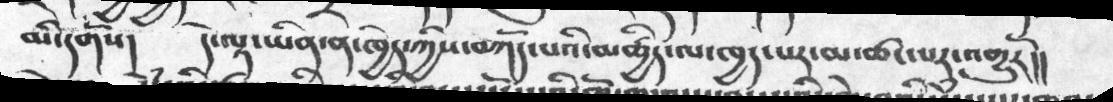མི་དགོས།  དེ་ལྟ་ཡིན་ན་ཁྱེད་ཀྱིས་བཀོད་པའི་མཚྱིད་ལ་ཁྱད་པར་མ་ཚང་པར་འགྱུརོ།།
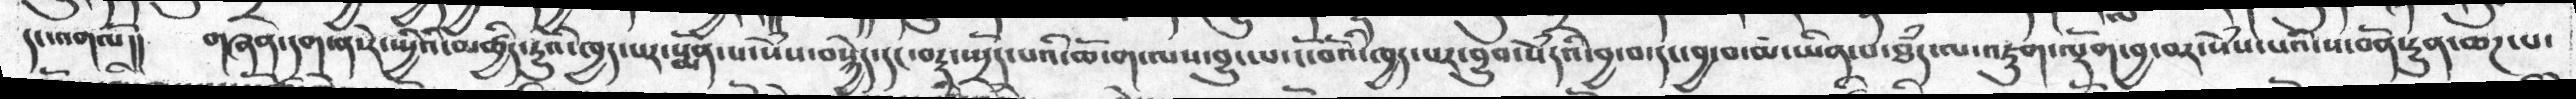དང་འགལོ།།  གཞན་དག་ན་རེ་སྤྱིའི་མཚྱིད་དྱུའི་ཁྱད་པར་སྨོན་པ་སེཾས་བསྐྱེད་དང་བརྡ་སྤྲོད་པའི་ཆོ་ག་ལས་བྱུང་པ་ངོ་བོའི་ཁྱད་པར་བྱུབ་སེཾདའི་བྱ་བ་མ་ཡིན་པ་ཐཾད་ལ་འཇུག་ལྡོག་བྱ་བར་སེཾས་པའི་ས་བོན་དྱུན་ཆཌ་པ་
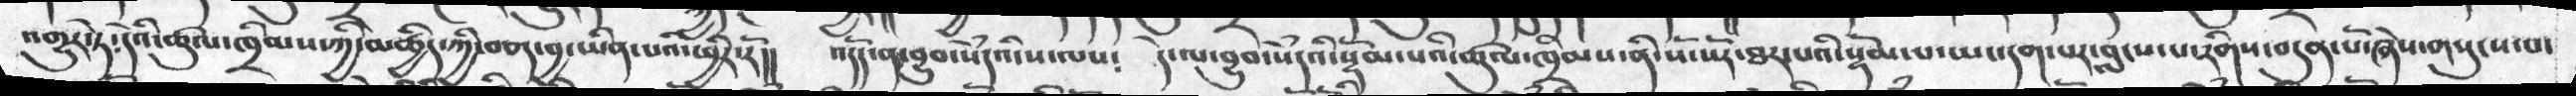འགྱུར་ཏེ་དེའི་ཚུལ་ཁྲིམས་ཀྱི་མཚྱིད་ཀྱི་བཅད་བྱ་ཡིན་པའི་ཕྱིར་རོ།།  འདོད་ན་བྱུབ་སེཾདའི་ས་ལས༴  དེ་ལ་བྱུབ་སེཾདའི་སྡོམ་པའི་ཚུལ་ཁྲིམས་ནི་སོ་སོར་ཐར་པའི་སྡོམ་པ་ཡང་དག་པར་བླངས་པ་རིགས་བདུན་པོ་ཞེས་གསུངས་པ་།
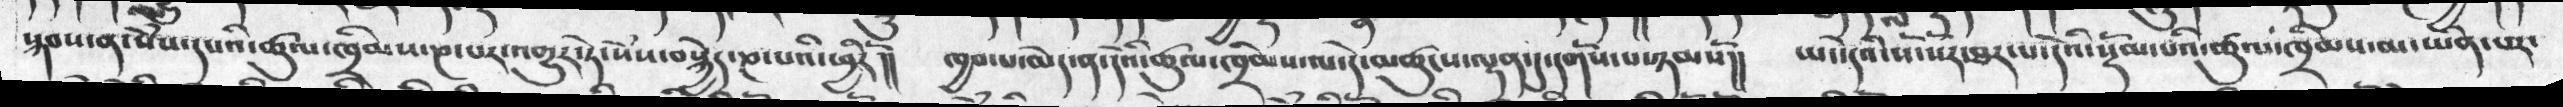སྐབས་ན་སེཾས་དཔའི་ཚུལ་ཁྲིམས་ཎ་པར་འགྱུར་ཏེ་སེཾས་བསྐྱེད་ཎ་པའི་ཕྱིརོ།།    ཁྱབ་པ་མེད་ན་དེའི་ཚུལ་ཁྲིམས་ལ་དེ་མཚུངས་ལྡན་དུ་དགོས་པ་ཉམསོ།།  ཡང་དེའི་སོ་སོར་ཐར་པ་དེའི་སྡོམ་པའི་ཚུལ་ཁྲིམས་མ་ཡིན་པར་
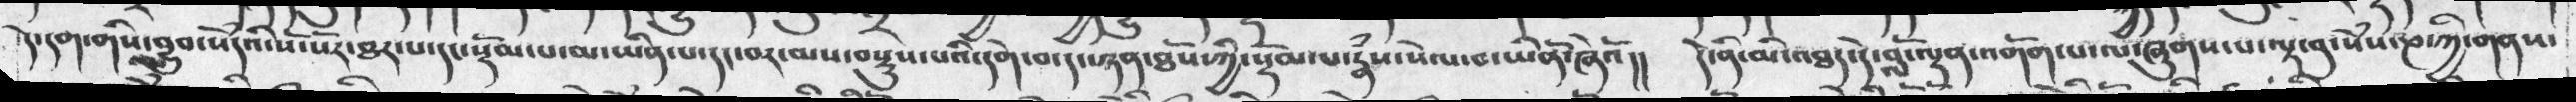དེ་དག་གིས་བྱུབ་སེཾདའི་སོ་སོར་ཐར་པ་དང་སྡོམ་པ་མ་ཡིན་པ་དང་བར་མས་བསྡུས་པའི་དགེ་བ་དང་ཉན་ཐོས་ཀྱི་སྡོམ་པ་རྣྃས་སེལ་བ་ཡིནོ་ཞེའོ།།   དེ་ནི་མི་འཐད་དེ་བློ་ལྡན་འགོག་པ་ལ་ཞུགས་པ་ལྟ་བུ་སེཾས་ཎ་ཀྱི་གནས་
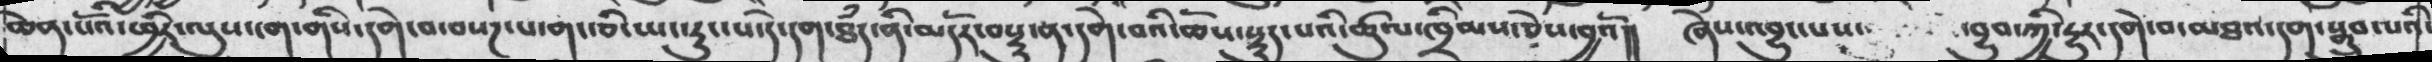ཆེན་པོའི་ཕྱིར་ལུས་ངག་གིས་དགེ་བ་་བསཌ་པ་གང་ཅི་ཡང་རུང་པ་དེ་དག་ཐཾད་ནི་མདོར་བསྡུ་ན་དགེ་བའི་ཆོས་བསྡུ་པའི་ཚུལ་ཁྲིམས་ཅེས་བྱའོ།།  ཞེས་འབྱུང་པས་  བྱུབ་ཀྱི་དྱུར་དགེ་བ་མཐའ་དག་སྒྲུབ་པའི་
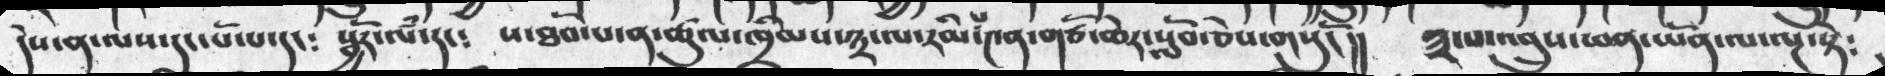དེས་ན་ལས་དང་པོ་པ་དང༴   སྦྱོར་ལཾ་དང༴   ས་ཐོབ་པ་ན་ཚུལ་ཁྲིམས་༣་ལ་རིམ་པ་༤ན་གཙོ་ཆེར་སློབ་ཅེས་གསུངོ།།   ༣་པ་འབྲུས་ཕན་ཡོན་ལ་ལྔ་སྟེ༴
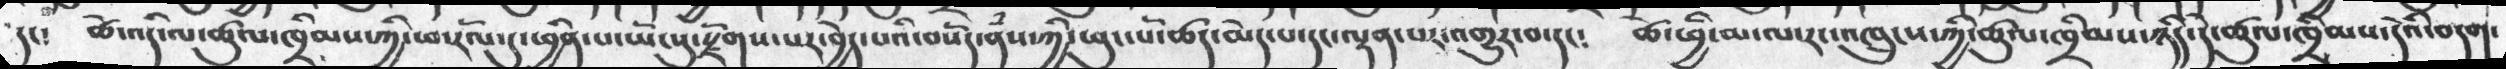དང༴   ཚེ་འདི་ལ་ཚུལ་ཁྲིམས་ཀྱི་ཕ་རོལ་དུ་ཕྱིན་པ་ཡོངསུ་རྫོགས་པར་བྱེད་པའི་བསོད་ནཾས་ཀྱི་ཕུང་པོ་ཚད་མེད་པ་དང་ལྡན་པར་འགྱུར་བ་དང༴   ཚེ་ཕྱི་མ་ལ་རང་འཁྲུངས་ཀྱི་ཚུལ་ཁྲིམས་ཉིད་དེ་ཚུལ་ཁྲིམས་དེའི་བདག་
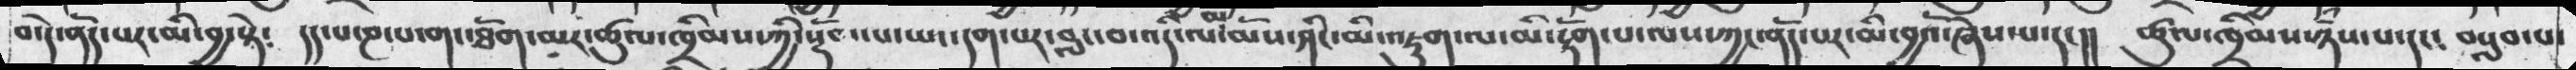བ་དེ་ནོད་པར་མི་བྱ་སྟེ༴   དད་པ་ཎ་པ་གང་ཐོག་མར་ཚུལ་ཁྲིམས་ཀྱི་སྡོམ་པ་ཡང་དག་པར་བླང་བ་འདི་ལ་མོས་ཤིང་མི་འཇུག་ལ་མི་རྟོག་པ་ལས་ཀྱང་ནོད་པར་མི་བྱའོ་ཞེས་པ་དང་།།   ཚུལ་ཁྲིམས་ཉཾས་པ་དང༴   བསླབ་པ་
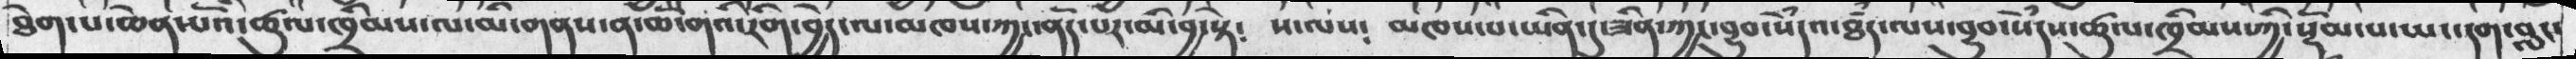ཐེག་པ་ཆེན་པོའི་ཚུལ་ཁྲིམས་ལ་མི་གནས་ན་ཆོ་གའི་རིག་བྱེད་ལ་མཁས་ཀྱང་ནོད་པར་མི་བྱ་སྟེ༴   ས་ལས༴  མཁས་པ་ཡིན་དུ་ཟིན་ཀྱང་བྱུབ་སེྃདའ་ཐཾད་ལས་བྱུབ་སེཾདས་ཚུལ་ཁྲིམས་ཀྱི་སྡོམ་པ་ཡང་དག་བླང་
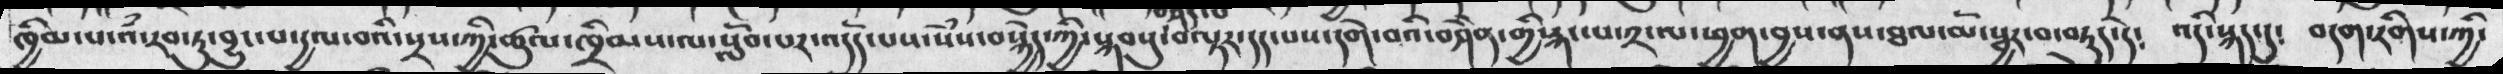ཁྱིམ་པ་འཾ་རབ་ཏུ་བྱུང་པ་དྱལ་བའི་སྲས་ཀྱི་ཚུལ་ཁྲིམས་ལ་སློབ་པར་འདོད་པས་སེཾས་བསྐྱེད་ཀྱི་སྐབསུ་བལྟར་དད་པས་དགེ་བའི་བཤིན་གྱི་རྐང་པ་༢་ལ་ཕྱག་བྱས་ནས་ཐལ་མོ་སྦྱར་བ་བཏུད་དེ༴   འདི་སྐད་དུ༴   བདག་རིགས་ཀྱི་
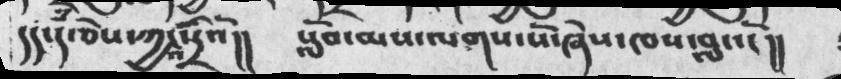དད་ད་ཅེས་ཀྱང་འདྲིའོ།།  སློབ་མས་ལགས་སོ་ཞེས་ཁས་བླང་ངོ།།
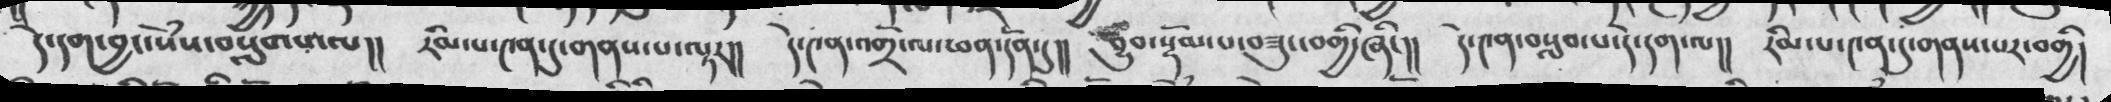དེ་དག་བྱང་སེཾས་བསླགས་ལ།།  རིམ་པ་༤ན་དུ་གནས་པ་ལྟར།།  དེ་༤ན་འགྲོ་ལ་ཕན་དོན་དུ།།   བྱུབ་སྡོམ་པ་བཟུང་བགྱི་ཞིང།།  དེ་༤ན་བསླབ་པ་དེ་དག་ལ།།  རིམ་པ་༤ན་དུ་གནས་པར་བགྱི།
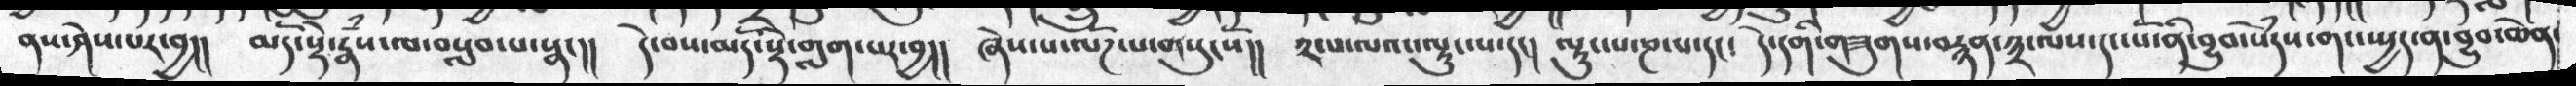ནས་ཤེས་པར་བྱ།།  མདོ་སྡེ་རྣཾས་ལ་བསླབ་པ་སྣང།།  དེ་བས་མདོ་སྡེ་གླག་པར་བྱ།།  ཞེས་ས་ལོཌ་པ་གསུངསོ།།  ༢་པ་ལའང་ལྟུང་པ་དང་།   ལྟུང་པ་ཎ་པ་དང༴  དེ་དག་གི་གཟུགས་བརྙན་༣་ལས་དང་པོ་ནི་བྱུབ་སེཾདས་གང་སྤྱད་ན་བྱུབ་ཆེན་
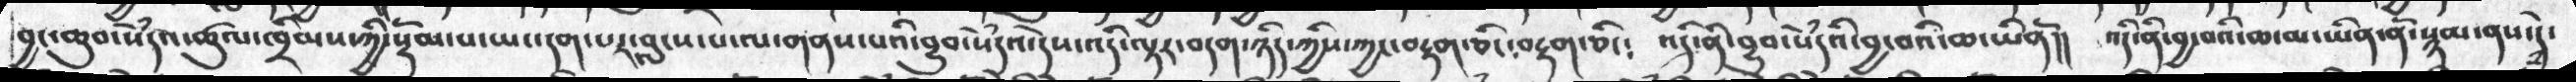བྱང་ཆུབ་སེཾདའ་ཚུལ་ཁྲིམས་ཀྱི་སྡོམ་པ་ཡང་དག་པར་བླངས་པ་ལ་གནས་པའི་བྱུབ་སེཾདའ་དེས་འདི་ལྟར་བདག་ཉིད་ཀྱིས་ཀྱང་བརྟག་ཅིང་བརྟག་ཅིང༴  འདི་ནི་བྱུབ་སེཾདའི་བྱ་བའི་ཆ་ཡིནོ།།   འདི་ནི་བྱ་བའི་ཆ་མ་ཡིན་ནོ་སྙམ་ནས་དེ་
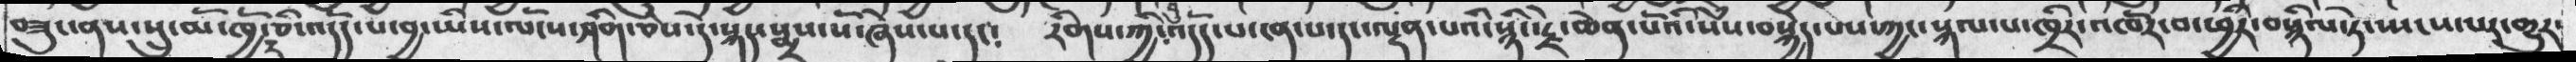བཟུང་ནས་སྲུ་མོ་ཁྱོད་ཅི་འདོད་པ་བྱ་ཡིས་ལོངས་ཤིག་ཅེས་དེ་སྐད་སྨྲས་སོ་ཞེས་པ་དང༴   རིགས་ཀྱི་བུ་འདོད་པ་ངན་པ་དང་ལྡན་པའི་སྙིང་རྗེ་ཆེན་པའི་སེཾས་བསྐྱེད་པས་ཀྱང་སྐལ་པ་ཁྲིར་འཁོར་བ་ཕྱིར་བསྙིལ་ཏེ་སྤངས་པར་གྱུར་
